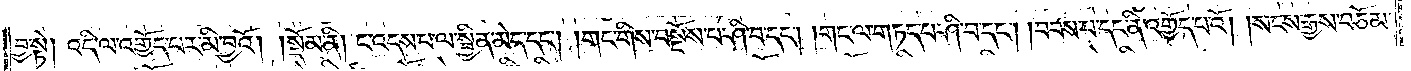བྱ་སྟེ། འདི་ལ་འགྱོད་པར་མི་བྱའོ།    །སྡོམ་ནི། ང་འདས་པ་ལ་སྦྱིན་མེད་དང༌། །གང་གིས་བསྔོས་པ་ཤི་བ་དང༌། གང་ལ་གཏད་པ་ཤི་བ་དང༌། །བབས་པ་དང་ནི་འགྱོད་པའོ། །སངས་རྒྱས་བཅོམ་
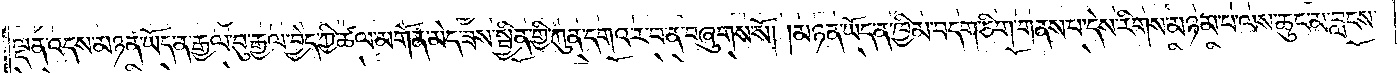ལྡན་འདས་མཉན་ཡོད་ན་རྒྱལ་བུ་རྒྱལ་བྱེད་ཀྱི་ཚལ་མགོན་མེད་ཟས་སྦྱིན་གྱི་ཀུན་དགའ་ར་བ་ན་བཞུགས་སོ། །མཉན་ཡོད་ན་ཁྱིམ་བདག་ཅིག་གནས་པ་དེས་རིགས་མཉམ་པ་ལས་ཆུང་མ་བླངས་
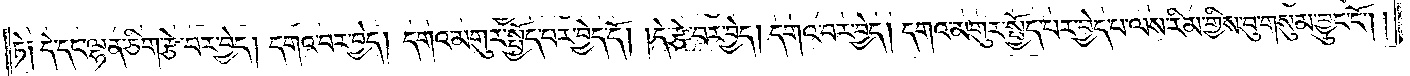ཏེ༑ དེ་དང་ལྷན་ཅིག་རྩེ་བར་བྱེད། དགའ་བར་བྱེད། དགའ་མགུར་སྤྱོད་པར་བྱེད་དོ། །དེ་རྩེ་བར་བྱེད། དགའ་བར་བྱེད། དགའ་མགུར་སྤྱོད་པར་བྱེད་པ་ལས་རིམ་གྱིས་བུ་གསུམ་བྱུང་ངོ༌། །
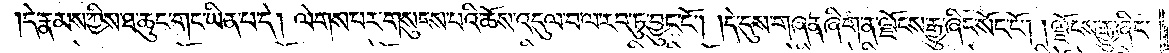།དེ་རྣམས་ཀྱིས་ཐ་ཆུང་གང་ཡིན་པ་དེ། ལེགས་པར་གསུངས་པའི་ཆོས་འདུལ་བ་ལ་རབ་ཏུ་བྱུང་ངོ༌། །དེ་དུས་གཞན་ཞིག་ན་ལྗོངས་རྒྱུ་ཞིང་སོང་ངོ༌།  །ལྗོངས་རྒྱུ་ཞིང་
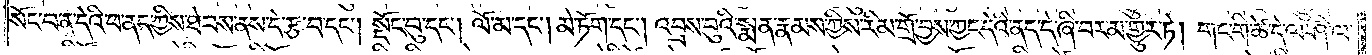སོང་བ་ན་དེའི་ཕ་ནད་ཀྱིས་ཐེབས་ནས་དེ་རྩ་བ་དང༌། སྡོང་བུ་དང༌། ལོ་མ་དང༌། མེ་ཏོག་དང༌། འབྲས་བུའི་སྨན་རྣམས་ཀྱིས་རིམ་གྲོ་བྱས་ཀྱང་དེའི་ནད་དེ་ཞི་བར་མ་གྱུར་ཏེ། གང་གི་ཚེ་དེ་ལ་ཤི་ལ་
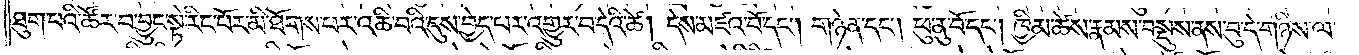ཐུག་པའི་ཚོར་བ་བྱུང་སྟེ་རིང་པོར་མི་ཐོགས་པར་འཆི་བའི་དུས་བྱེད་པར་འགྱུར་བ་དེའི་ཚེ། དེས་མཛའ་བོ་དང༌། གཉེན་དང༌། ཕུ་ནུ་བོ་དང༌། ཁྱིམ་ཚེས་རྣམས་བསྡུས་ནས་བུ་དེ་གཉིས་ལ་
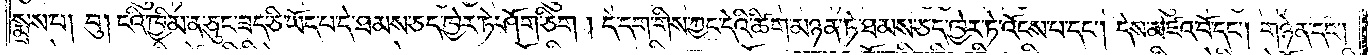སྨྲས་པ། བུ། ངའི་ཁྱིམ་ན་ཅུང་ཟད་ཅི་ཡོད་པ་དེ་ཐམས་ཅད་ཁྱེར་ཏེ་ཤོག་ཅིག །དེ་དག་གིས་ཀྱང་དེའི་ཚིག་མཉན་ཏེ་ཐམས་ཅད་ཁྱེར་ཏེ་འོངས་པ་དང༌། དེས་མཛའ་བོ་དང༌། གཉེན་དང༌།
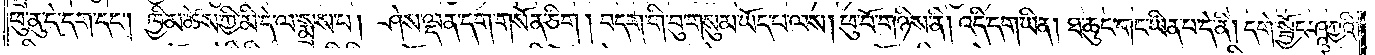ཕུ་ནུ་དེ་དག་དང༌། ཁྱིམ་ཚེས་ཀྱི་མི་དེ་ལ་སྨྲས་པ། ཤེས་ལྡན་དག་གསོན་ཅིག། བདག་གི་བུ་གསུམ་ཡོད་པ་ལས། ཕུ་བོ་གཉིས་ནི། འདི་དག་ཡིན། ཐ་ཆུང་གང་ཡིན་པ་དེ་ནི། དགེ་སྦྱོང་ཤཱཀྱའི་
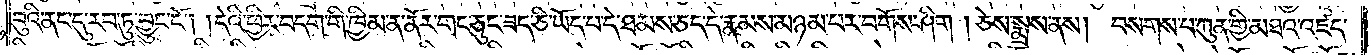བུའི་ནང་དུ་རབ་ཏུ་བྱུང་ངོ༌། །དེའི་ཕྱིར་བདག་གི་ཁྱིམ་ན་ནོར་གང་ཅུང་ཟད་ཅི་ཡོད་པ་དེ་ཐམས་ཅད་དེ་རྣམས་མཉམ་པར་བགོས་ཤིག ། ཅེས་སྨྲས་ནས། བསགས་པ་ཀུན་གྱི་མཐའ་འཛད་
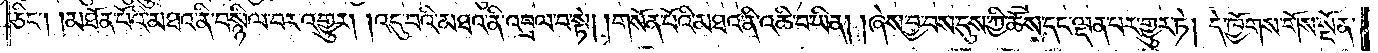ཅིང༌། །མཐོན་པོའི་མཐའ་ནི་བསྙིལ་བར་འགྱུར། །འདུ་བའི་མཐའ་ནི་འབྲལ་བ་སྟེ། །གསོན་པོའི་མཐའ་ནི་འཆི་བ་ཡིན། །ཞེས་བྱ་བས་དུས་ཀྱི་ཆོས་དང་ལྡན་པར་གྱུར་ཏེ། དེ་ཁྱོགས་གོས་སྔོན་
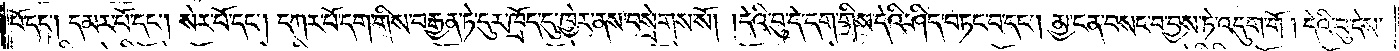པོ་དང༌། དམར་པོ་དང༌། སེར་པོ་དང༌། དཀར་པོ་དག་གིས་བརྒྱན་ཏེ་དུར་ཁྲོད་དུ་ཁྱེར་ནས་བསྲེགས་སོ། །དེའི་བུ་དེ་དག་གིས་དེའི་ཤིད་བཏང་བ་དང༌། མྱ་ངན་བསང་བ་བྱས་ཏེ་འདུག་གོ། དེའི་བུ་དེས་
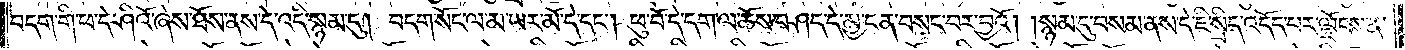བདག་གི་ཕ་དེ་ཤིའོ་ཞེས་ཐོས་ནས་དེ་འདི་སྙམ་དུ། བདག་སོང་ལ་མ་ཡར་མོ་དེ་དང༌། ཕུ་བོ་དེ་དག་ལ་ཆོས་བཤད་དེ་མྱ་ངན་བསང་བར་བྱའོ། །སྙམ་དུ་བསམ་ནས་དེ་ཇི་སྲིད་འདོད་པར་ལྗོངས་ན་
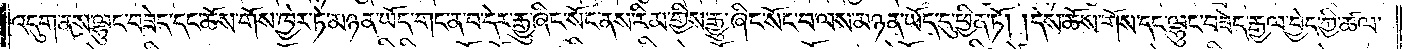འདུག་ནས་ལྷུང་བཟེད་དང་ཆོས་གོས་ཁྱེར་ཏེ་མཉན་ཡོད་གང་ན་བ་དེར་རྒྱུ་ཞིང་སོང་ནས་རིམ་གྱིས་རྒྱུ་ཞིང་སོང་བ་ལས་མཉན་ཡོད་དུ་ཕྱིན་ཏོ། དེས་ཆོས་གོས་དང་ལྷུང་བཟེད་རྒྱལ་བྱེད་ཀྱི་ཚལ་
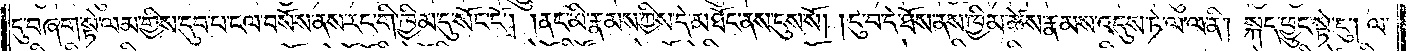དུ་བཞག་སྟེ་ལམ་གྱིས་དུབ་པ་ངལ་བསོས་ནས་རང་གི་ཁྱིམ་དུ་སོང་ངོ༌། །ནང་མི་རྣམས་ཀྱིས་དེ་མཐོང་ནས་ངུས་སོ། །ངུ་བ་དེ་ཐོས་ནས་ཁྱིམ་ཚེས་རྣམས་འདུས་ཏེ་ལ་ལ་ནི། སྐད་ཕྱུང་སྟེ་ངུ༌། ལ་
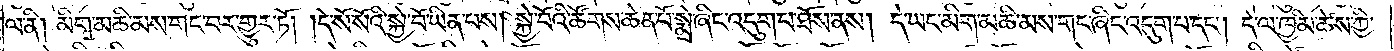ལ་ནི། མིག་མཆི་མས་གང་བར་གྱུར་ཏོ། །དེ་སོ་སོའི་སྐྱེ་བོ་ཡིན་པས། སྐྱེ་བོའི་ཚོགས་ཆེན་པོ་སྨྲེ་ཞིང་འདུག་པ་ཐོས་ནས། དེ་ཡང་མིག་མཆི་མས་གང་ཞིང་འདུག་པ་དང༌། དེ་ལ་ཁྱིམ་ཚེས་ཀྱི་
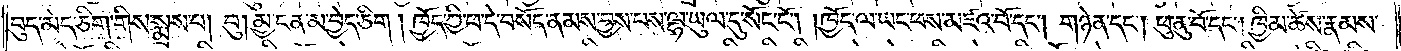བུད་མེད་ཅིག་གིས་སྨྲས་པ། བུ། མྱ་ངན་མ་བྱེད་ཅིག། ཁྱོད་ཀྱི་ཕ་དེ་བསོད་ནམས་བྱས་པས་ལྷ་ཡུལ་དུ་སོང་ངོ༌། །ཁྱོད་ལ་ཡང་ཕས་མཛའ་བོ་དང༌། གཉེན་དང༌། ཕུ་ནུ་བོ་དང༌། ཁྱིམ་ཚེས་རྣམས་
